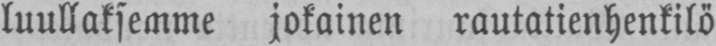luullaksemme jokainen rautatienhenkilö
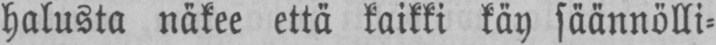halusta näkee että kaikki käy säännölli-
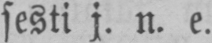sesti j. n. e.
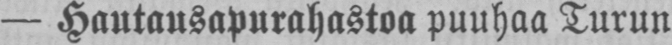— Hautausapurahastoa puuhaa Turun
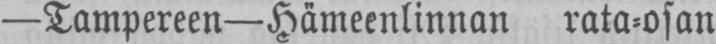—Tampereen—Hämeenlinnan rata-osan
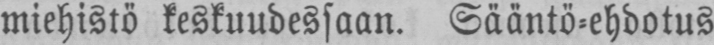miehistö keskuudessaan. Sääntö-ehdotus
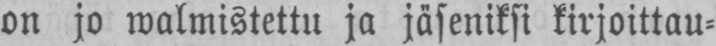on jo walmistettu ja jäseniksi kirjoittau-
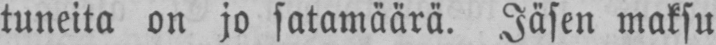tuneita on jo satamäärä. Jäsen maksu
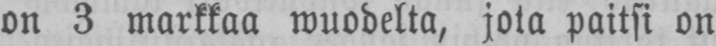on 3 markkaa wuodelta, jota paitsi on
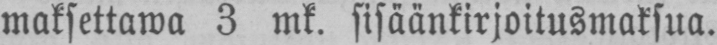maksettawa 3 mk. sisäänkirjoitusmaksua.
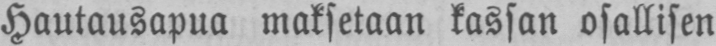Hautausapua maksetaan kassan osallisen
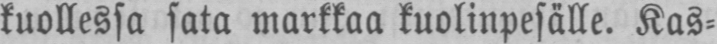kuollessa sata markkaa kuolinpesälle. Kas-
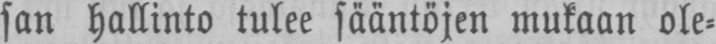san hallinto tulee sääntöjen mukaan ole-
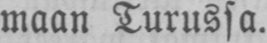maan Turussa.
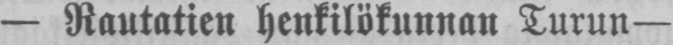— Rautatien henkilökunnan Turun—
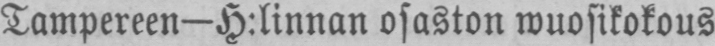Tampereen—H:linnan osaston wuosikokous
